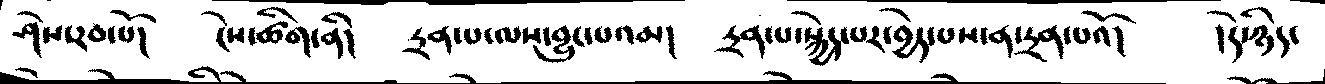ཤེས་རབ་པོ།   ངེས་ཚིག་ནི།   དྲན་པ་ལས་བྱུང་པའམ།   དྲན་པ་སྐྱེད་པར་བྱེད་པས་ན་དྲན་པའོ།   །དེ་ཉིད་
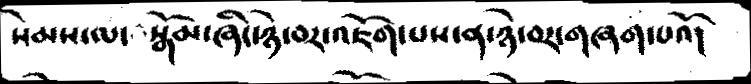སེམས་ལ་ སྒོམ་ཞིང་ཉེ་བར་འཇོག་པས་ན་ཉེ་བར་གཞག་པའོ།
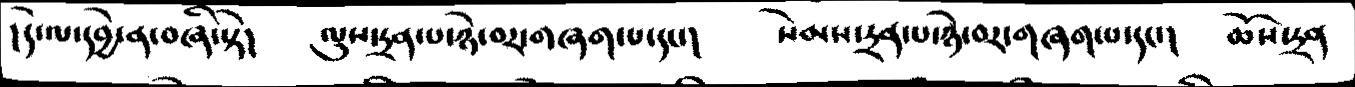།དེལ་དབྱེ་ན་བཞི་སྟེ།   ལུས་དྲན་པ་ཉེ་བར་གཞག་པ་དང་།   སེམས་དྲན་པ་ཉེ་བར་གཞག་པ་དང་།   ཆོས་དྲན
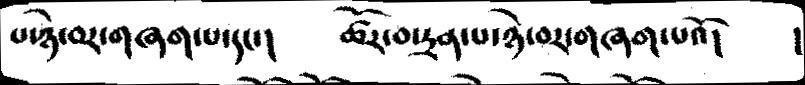པ་ཉེ་བར་གཞག་པ་དང་།   ཚོར་བ་དྲན་པ་ཉེ་བར་གཞག་པའོ།  །
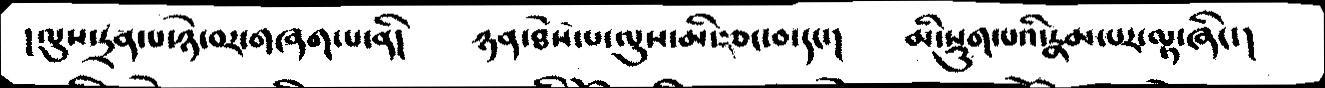།ལུས་དྲན་པ་ཉེ་བར་གཞག་པ་ནི།   ཉན་ཐོས་པ་ལུས་མི་རྩང་བ་དང་།   མི་སྡུག་པའི་རྣམ་པར་ལྟ་ཞིང་།
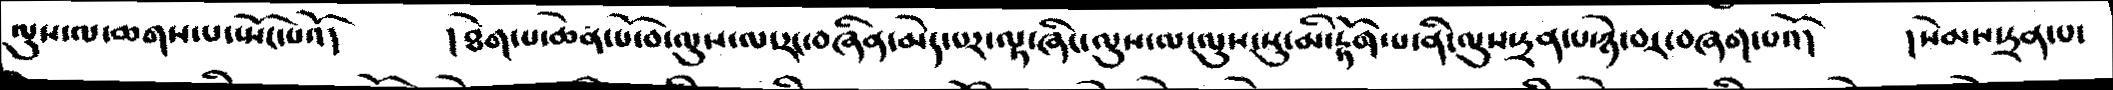ལུས་ལ་ཆགས་པ་སྤོང་པའོ།   །ཐེག་པ་ཆེན་པོ་བ་ལུས་ལ་རང་བཞིན་མེད་པར་ལྟ་ཞིང་ལུས་ལ་ལུས་སུ་མི་རྟོག་པ་ནི་ལུས་དྲན་པ་ཉེ་བར་བཞག་པའོ།   །སེམས་དྲན་པ་
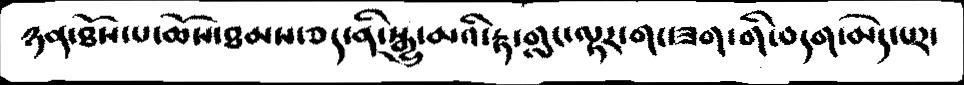ཉན་ཐོས་པ་ཆོས་ཐམས་ཅད་ནི་སྒྱུ་མའི་རྟ་གླང་ལྟར་གང་ཟག་གི་བདག་མེད་པར་
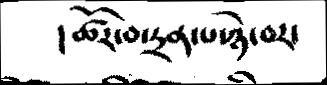།ཚོར་བ་དྲན་པ་ཉེ་བར་
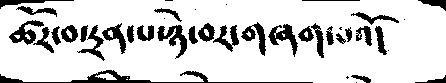ཚོར་བ་དྲན་པ་ཉེ་བར་གཞག་པའོ།
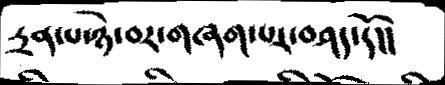དྲན་པ་ཉེ་བར་གཞག་པར་བཤད་དོ།།
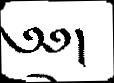༄༅།
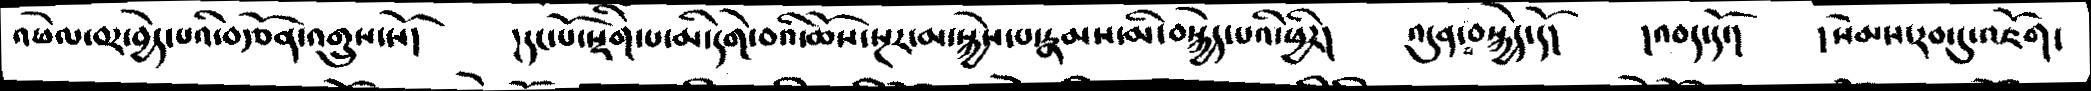འཕེལ་བར་བྱེད་པའི་བརྩོན་འགྲུས་སོ།   །དང་པོ་སྡིག་པ་མི་དགེ་བའི་ཆོས་སྔར་མ་སྐྱེས་པ་རྣམས་མི་བསྐྱེད་པའི་ཕྱིར།   འདུན་པ་བསྐྱེད་དོ།   །འབད་དོ་།   །སེམས་རབ་དུ་འཇོག་
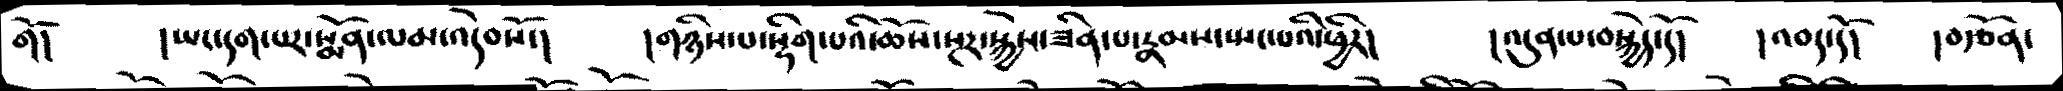གོ།    །ཡང་དག་པར་སྨོན་ལམ་འདེབསོ་།   །གཉིས་པ་སྡིག་པའི་ཆོས་སྔར་སྐྱེས་ཟིན་པ་རྣམས་སྤང་པའི་ཕྱིར།   །འདུན་པ་བསྐྱེད་དོ།   འབད་དོ།   །བརྩོན་
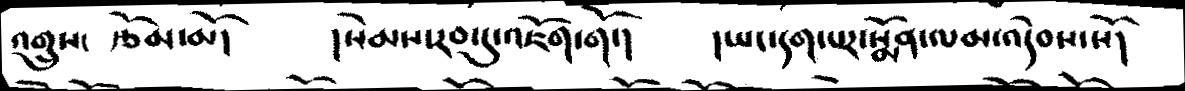འགྲུས་ རྩོམ་མོ།    །སེམས་རབ་དུ་འཇོག་གོ་།   །ཡང་དག་པར་སྨོན་ལམ་འདེབས་སོ།
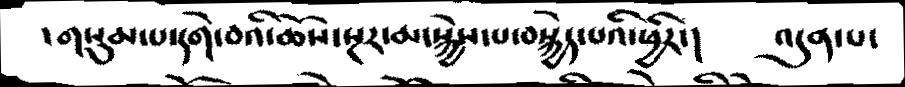།གསུམ་པ་དགེ་བའི་ཆོས་སྔར་མ་སྐྱེས་པ་བསྐྱེད་པའི་ཕྱིར་།    འདུན་པ་
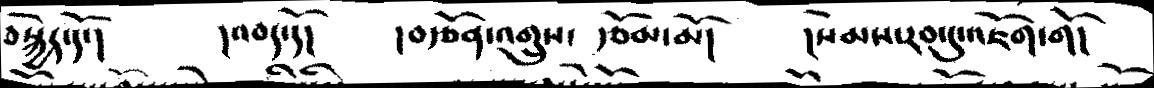བསྐྱེད་དོ་།     །འབད་དོ།    །བརྩོན་འགྲུས་  རྩོམ་མོ།     །སེམས་རབ་དུ་འཇོག་གོ།
